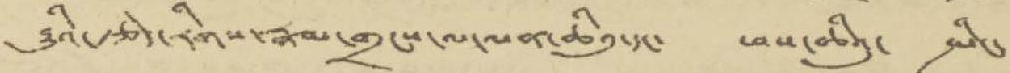རྒྱུའི་རྩེ་རིགས་རྣམ་གྲངས་ལ་ལན་ཆིའུ་དང་ ཕས་ཆིའུ་ སྤིང་
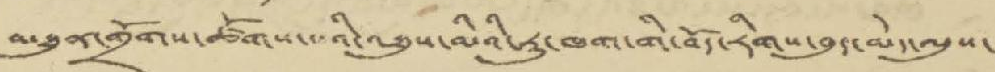མཐུན་གྲོགས་ཚོགས་པའི་འཐུས་མིའི་རུ་ཁག་གི་བོད་རིགས་བུད་མེད་ལུས་
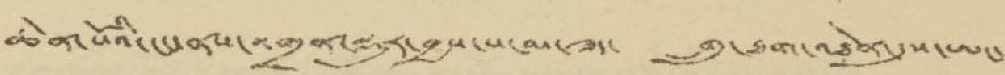ཆེན་པོའི་ངང་ནས་འགྲན་སྡུར་བྱས་པ་མ་ཟད་ གྲུ་ཐག་འཐེན་དུས་ཨང་
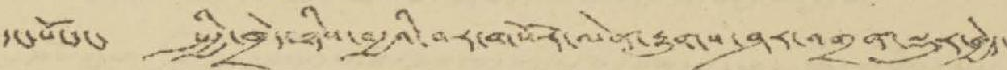དང་པོ་དང་ སྤྱི་ཁྲེད་ཉིས་བརྒྱའི་བར་གསོར་ལེན་རྒྱུགས་ཤར་འགྲན་སྡུར་བྱེད་
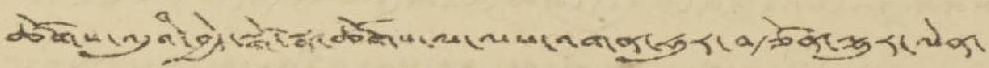ཚོགས་འདུའི་བྱེད་སྒོ་སྣ་ཚོགས་ལ་ལས་འགན་ཧུར་བརྩོན་ལྷུར་ལེན་
